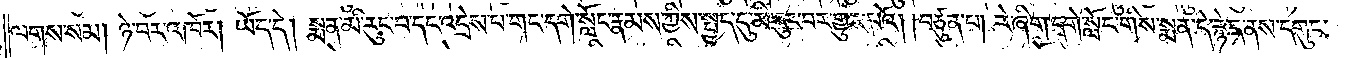ལགས་སམ། ཉེ་བར་འཁོར། ཡོད་དེ། སྨན་མི་རུང་བ་དང་འདྲེས་པ་གང་དགེ་སློང་རྣམས་ཀྱིས་སྤྱད་དུ་མི་རུང་བར་གྱུར་པའོ། །བཙུན་པ། རེ་ཞིག་དགེ་སློང་གིས་སྨན་དེ་རྙེད་ནས་དགུང་
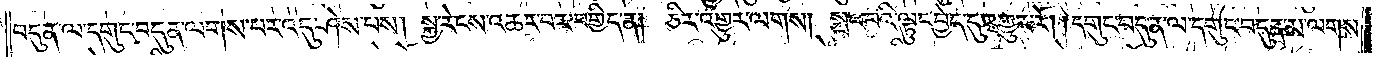བདུན་ལ་དགུང་བདུན་ལགས་པར་འདུ་ཤེས་པས། སྐྱ་རེངས་འཆར་བར་བགྱིད་ན། ཅིར་འགྱུར་ལགས། སྤང་བའི་ལྟུང་བྱེད་དུ་འགྱུར་རོ། །དགུང་བདུན་ལ་དགུང་བདུན་མ་ལགས་
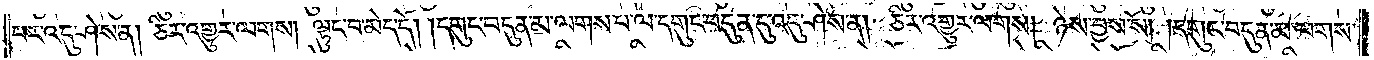པར་འདུ་ཤེས་ན། ཅིར་འགྱུར་ལགས། ལྟུང་བ་མེད་དེ། །དགུང་བདུན་མ་ལགས་པ་ལ་དགུང་བདུན་དུ་འདུ་ཤེས་ན། ཅིར་འགྱུར་ལགས། ཉེས་བྱས་སོ། །དགུང་བདུན་མ་ལགས་
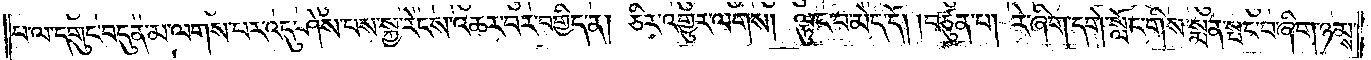པ་ལ་དགུང་བདུན་མ་ལགས་པར་འདུ་ཤེས་པས་སྐྱ་རེངས་འཆར་བར་བགྱིད་ན། ཅིར་འགྱུར་ལགས། ལྟུང་བ་མེད་དོ། །བཙུན་པ། རེ་ཞིག་དགེ་སློང་གིས་སྨན་སྤང་བ་ཞིག་ཉམས་
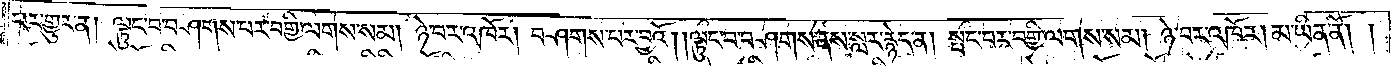པར་གྱུར་ན། ལྟུང་བ་བཤགས་པར་བགྱི་ལགས་སམ། ཉེ་བར་འཁོར། བཤགས་པར་བྱའོ། །ལྟུང་བ་བཤགས་ནས་སླར་རྙེད་ན། སྤང་བར་བགྱི་ལགས་སམ། ཉེ་བར་འཁོར། མ་ཡིན་ནོ། །
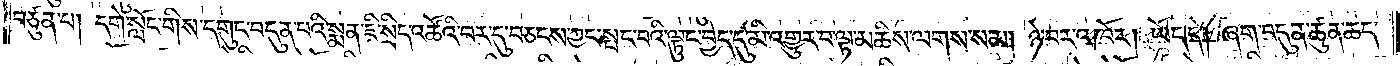བཙུན་པ། དགེ་སློང་གིས་དགུང་བདུན་པའི་སྨན་ཇི་སྲིད་འཚོའི་བར་དུ་བཅངས་ཀྱང་སྤང་བའི་ལྟུང་བྱེད་དུ་མི་འགྱུར་བ་ལྟ་མཆིས་ལགས་སམ། ཉེ་བར་འཁོར། ཡོད་དེ། ཞག་བདུན་ཚུན་ཆད་
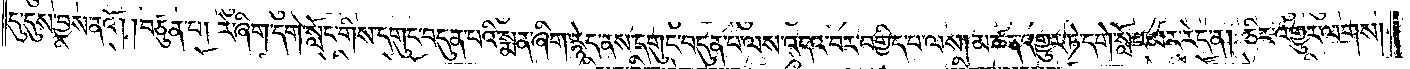དུ་དུས་བྱས་ནའོ། །བཙུན་པ། རེ་ཞིག་དགེ་སློང་གིས་དགུང་བདུན་པའི་སྨན་ཞིག་རྙེད་ནས་དགུང་བདུན་པ་ལས་འདའ་བར་བགྱིད་པ་ལས། མཚན་འགྱུར་ཏེ་དགེ་སློང་མར་རེད་ན། ཅིར་འགྱུར་ལགས།
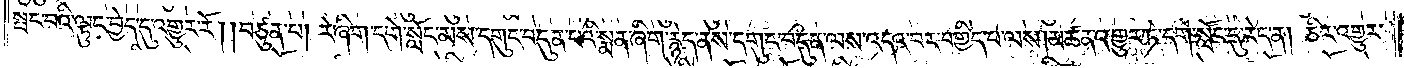སྤང་བའི་ལྟུང་བྱེད་དུ་འགྱུར་རོ། །བཙུན་པ། རེ་ཞིག་དགེ་སློང་མས་དགུང་བདུན་པའི་སྨན་ཞིག་རྙེད་ནས་དགུང་བདུན་ལས་འདའ་བར་བགྱིད་པ་ལས། མཚན་འགྱུར་ཏེ་དགེ་སློང་དུ་རེད་ན། ཅིར་འགྱུར་
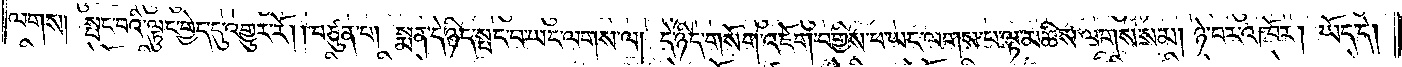ལགས། སྤང་བའི་ལྟུང་བྱེད་དུ་འགྱུར་རོ། །བཙུན་པ། སྨན་དེ་ཉིད་སྤང་བ་ཡང་ལགས་ལ། དེ་ཉིད་གསོག་འཇོག་བགྱིས་པ་ཡང་ལགས་པ་ལྟ་མཆིས་ལགས་སམ། ཉེ་བར་འཁོར། ཡོད་དེ།
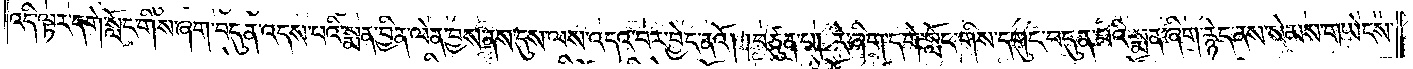འདི་ལྟར་དགེ་སློང་གིས་ཞག་བདུན་འདས་པའི་སྨན་བྱིན་ལེན་བྱས་ནས་དུས་ལས་འདའ་བར་བྱེད་ནའོ། །བཙུན་པ། རེ་ཞིག་དགེ་སློང་གིས་དགུང་བདུན་པའི་སྨན་ཞིག་རྙེད་ནས་སེམས་གཡེངས་
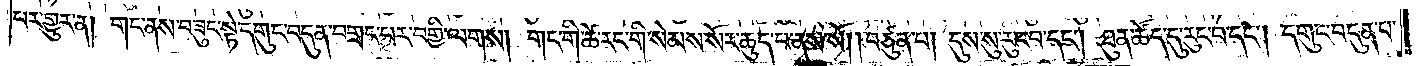པར་གྱུར་ན། གང་ནས་བཟུང་སྟེ་དགུང་བདུན་བགྲང་བར་བགྱི་ལགས། གང་གི་ཚེ་རང་གི་སེམས་སོར་ཆུད་པ་ནས་སོ། །བཙུན་པ། དུས་སུ་རུང་བ་དང༌། ཐུན་ཚོད་དུ་རུང་བ་དང༌། དགུང་བདུན་པ་
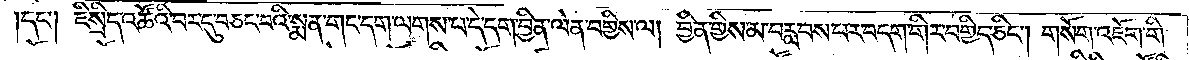དང༌། ཇི་སྲིད་འཚོའི་བར་དུ་བཅང་བའི་སྨན་གང་དག་ལགས་པ་དེ་དག་བྱིན་ལེན་བགྱིས་ལ། བྱིན་གྱིས་མ་བརླབས་པར་བདག་གིར་བགྱིད་ཅིང༌། གསོག་འཇོག་གི་
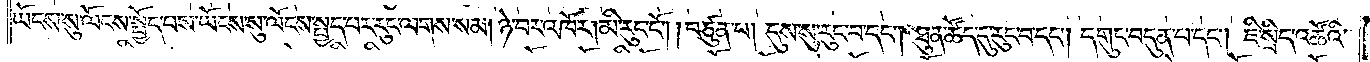ཡོངས་སུ་ལོངས་སྤྱོད་པས་ཡོངས་སུ་ལོངས་སྤྱད་པར་རུང་ལགས་སམ། ཉེ་བར་འཁོར། མི་རུང་ངོ༌། །བཙུན་པ། དུས་སུ་རུང་བ་དང༌། ཐུན་ཚོད་དུ་རུང་བ་དང༌། དགུང་བདུན་པ་དང༌། ཇི་སྲིད་འཚོའི་
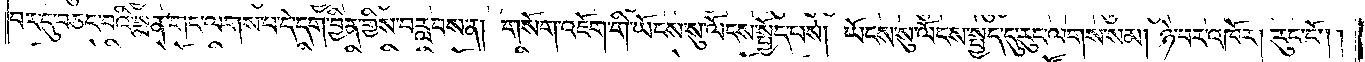བར་དུ་བཅང་བའི་སྨན་གང་ལགས་པ་དེ་དག་བྱིན་གྱིས་བརླབས་ན། གསོག་འཇོག་གི་ཡོངས་སུ་ལོངས་སྤྱོད་པས། ཡོངས་སུ་ལོངས་སྤྱད་དུ་རུང་ལགས་སམ། ཉེ་བར་འཁོར། རུང་ངོ༌། །
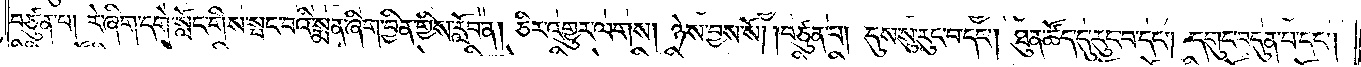བཙུན་པ། རེ་ཞིག་དགེ་སློང་གིས་སྤང་བའི་སྨན་ཞིག་བྱིན་གྱིས་རློབ་ན། ཅིར་འགྱུར་ལགས། ཉེས་བྱས་སོ། །བཙུན་པ། དུས་སུ་རུང་བ་དང༌། ཐུན་ཚོད་དུ་རུང་བ་དང༌། དགུང་བདུན་པ་དང༌།
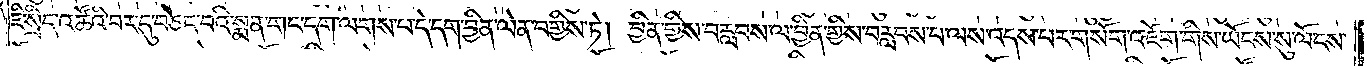ཇི་སྲིད་འཚོའི་བར་དུ་བཅང་བའི་སྨན་གང་དག་ལགས་པ་དེ་དག་བྱིན་ལེན་བགྱིས་ཏེ། བྱིན་གྱིས་བརླབས་ལ་བྱིན་གྱིས་བརླབས་པ་ལས་འདས་པར་གསོག་འཇོག་གིས་ཡོངས་སུ་ལོངས་
